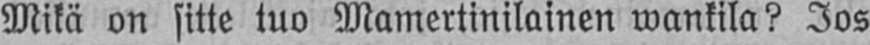Mikä on sitte tuo Mamertinilainen wankila? Jos
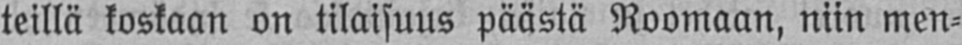teillä koskaan on tilaisuus päästä Roomaan, niin men-
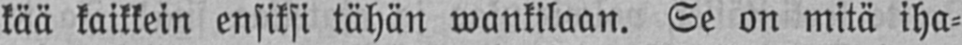kää kaikkein ensiksi tähän wankilaan. Se on mitä iha-
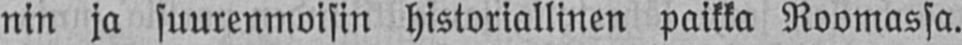nin ja suurenmoisin historiallinen paikka Roomassa.
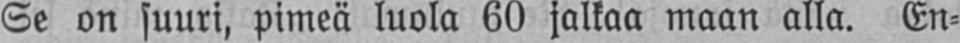Se on suuri, pimeä luola 60 jalkaa maan alla. En-
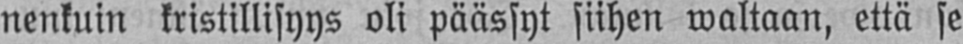nenkuin kristillisyys oli päässyt siihen waltaan, että se
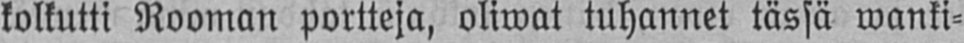kolkutti Rooman portteja, oliwat tuhannet tässä wanki-
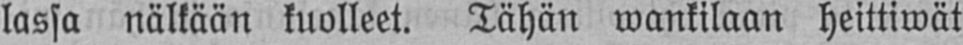lassa nälkään kuolleet. Tähän wankilaan heittiwät
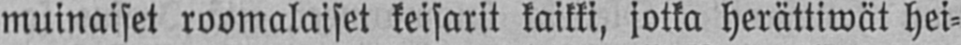muinaiset roomalaiset keisarit kaikki, jotka herättiwät hei-
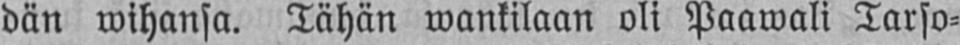dän wihansa. Tähän wankilaan oli Paawali Tarso-
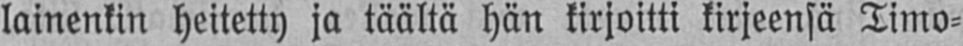lainenkin heitetty ja täältä hän kirjoitti kirjeensä Timo-
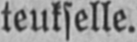teukselle.
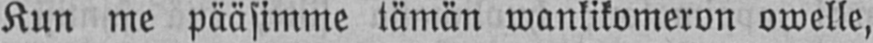Kun me pääsimme tämän wankikomeron owelle,
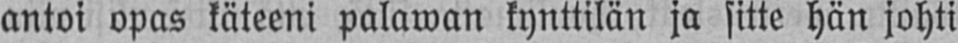antoi opas käteeni palawan kynttilän ja sitte hän johti
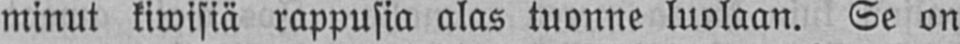minut kiwisiä rappusia alas tuonne luolaan. Se on
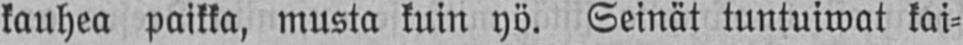kauhea paikka, musta kuin yö. Seinät tuntuiwat kai-
